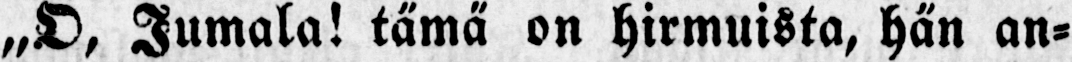„O, Jumala! tä mä on hirmuista, hä n an-
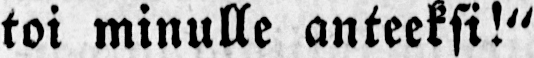toi minulle anteeksi!"
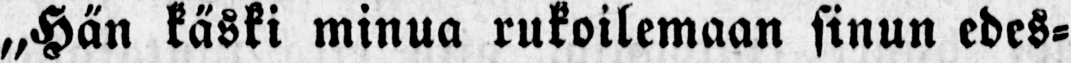„Hä n kä ski minua rukoilemaan sinun edes-
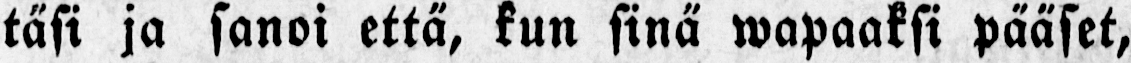täsi ja sanoi että , kun sinä wapaaksi pää set,
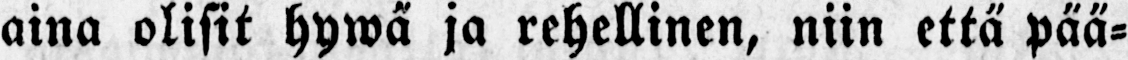aina olisit hywä ja rehellinen, niin että pää-
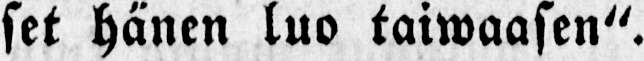set hä nen luo taiwaasen".
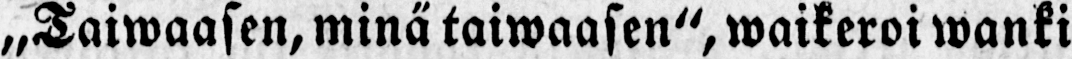„Taiwaasen, minä taiwaasen", waikeroi wanki
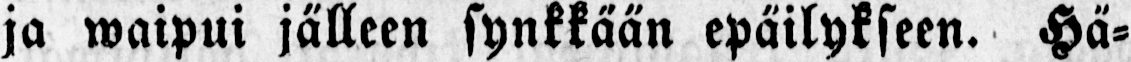ja waipui jä lleen synkkää n epä ilykseen. Hä-
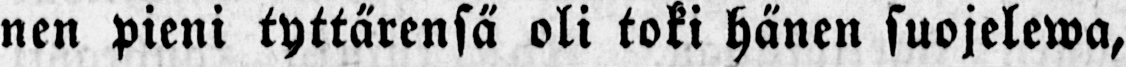nen pieni tyttä rensä oli toki hä nen suojelewa,
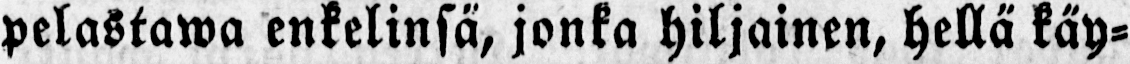pelastawa enkelinsä , jonka hiljainen, hellä käy-
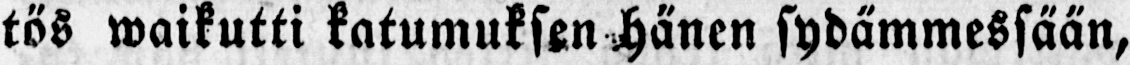tös waikutti katumuksen hä nen sydämmessää n,
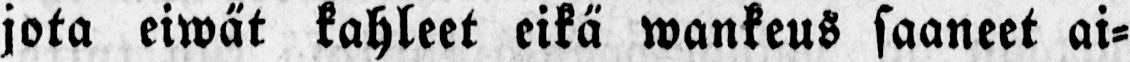jota eiwä t kahleet eikä wankeus saaneet ai-
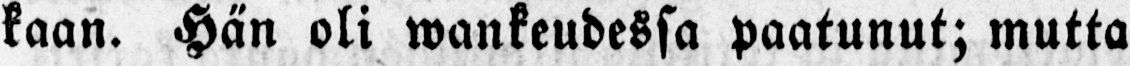kaan. Hä n oli wankeudessa paatunut; mutta
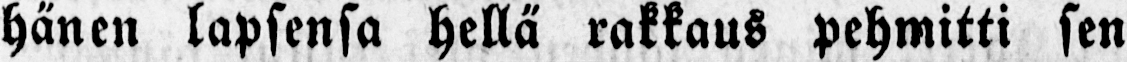hä nen lapsensa hellä rakkaus pehmitti sen
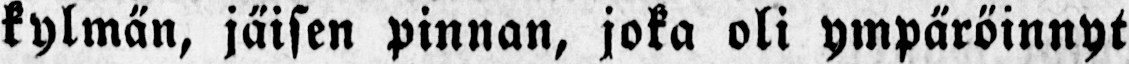kylmä n, jä isen pinnan, joka oli ympäröinnyt
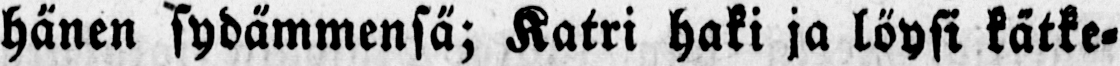hä nen sydämmensä; Katri haki ja löysi kätke-
